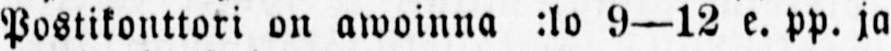Postikonttori on awoinna k:lo 9—12 e. pp. ja
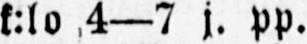k:lo 4—7 j. pp.
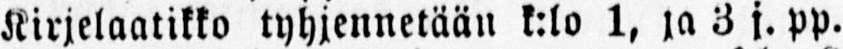Kirjelaatikko tyhjennetään k:lo 1, ja 3 j. pp.
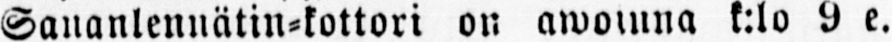Sananlennätin-kottori on awoinna k:lo 9 e.
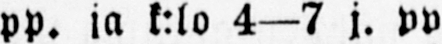pp. ja k:lo 4—7 j. pp.
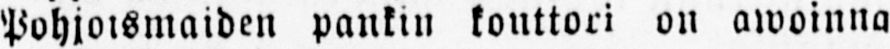Pohjoismaiden pankin konttori on awoinna
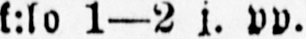k.lo 1—2 j. pp.
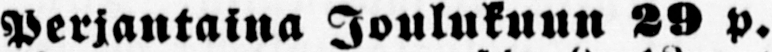Perjantaina Joulukuun 29 p.
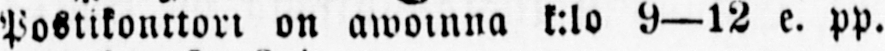Postikonttori on awoinna k:lo 9 —12 e. pp.
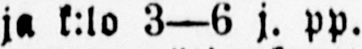ja k:lo 3—6 j. pp.
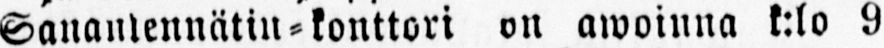Sananlennätin-konttori on awoinna k:lo 9
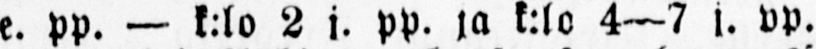e. PP. — k:lo 2 j. pp. ja k:lo 4 —7 j. pp.
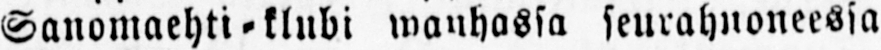Sanomaehti-klubi wanhassa seurahuoneessa
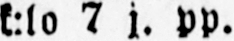k:lo 7 j. pp.
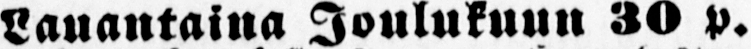Lauantaina Joulukuun 30 p.
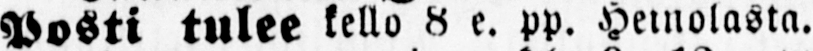Posti tulee kello 8 e. pp. Heinolasta.
